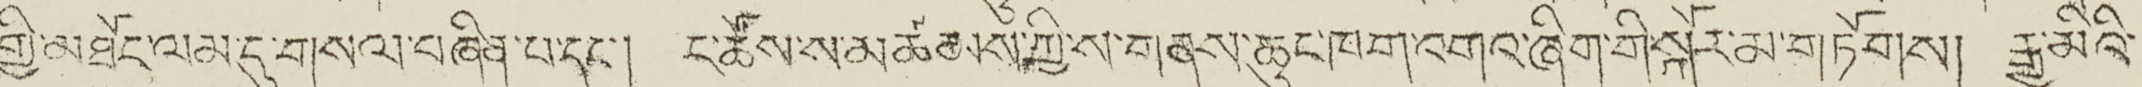གྱི་མཐོང་ལན་དུ་གསལ་བཞིན་པ་དང་། ང་ཚོས་ས་མཚམས་ཀྱི་ས་གནས་ཆུང་ཁག་འགའ་ཞིག་གི་སྐོར་མ་གཏོགས། རྒྱ་མིའི་
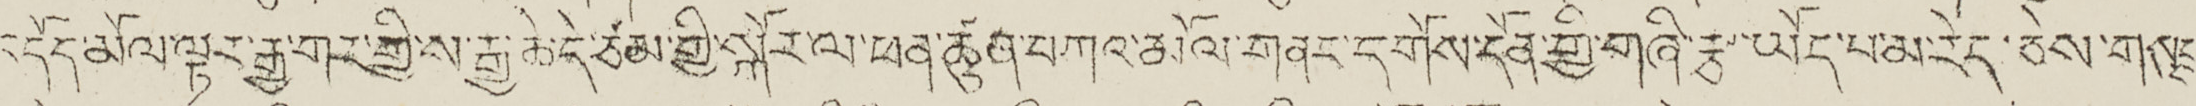འདོད་མོལ་ལྟར་རྒྱ་གར་གྱིས་རྒྱ་ཆེ་དེ་ཙམ་གྱི་སྐོར་ལ་ཕན་ཚུན་བཀའ་མོལ་གནང་དགོས་དོན་གྱི་གཞི་རྩ་ཡོད་པ་མ་རེད་ཅེས་གསུངས
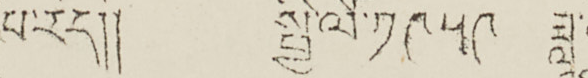པ་རེད།། སྤྱི་ལོ་ ༡༩༥༩ ཟླ་
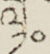༡༠
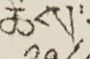ཚེས་
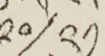༢༠/༢༡
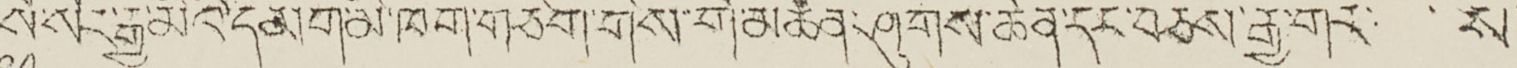སོ་སོར་རྒྱ་མིའི་དམག་མི་ཁག་གཅིག་གིས་གོ་མཚོན་ཤུགས་ཆེན་དང་བཅས་རྒྱ་གར་ ས་
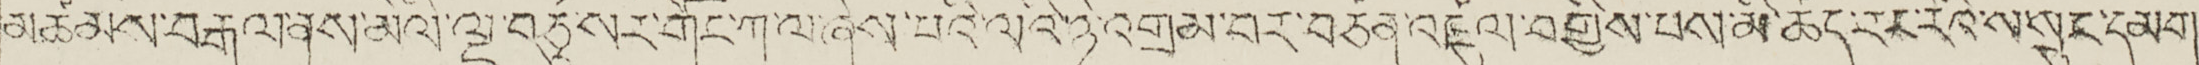མཚམས་བརྒལ་ནས་མེལི་ལྔ་བཅུ་སར་གོང་ཀ་ལ་ཞེས་པའི་ལའི་ཉེ་འགྲམ་བར་བཙན་འཛུལ་བགྱིས་པས་མི་ཚད་རང་རེའི་ས་སྲུང་དམག་
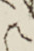༩
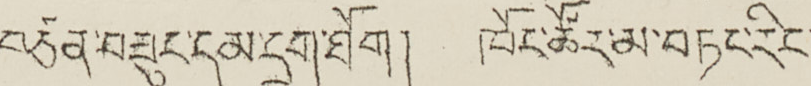བཙན་བཟུང་དམ་དྲག་ཐོག། ཁོང་ཚོར་མ་བཏང་རིང་
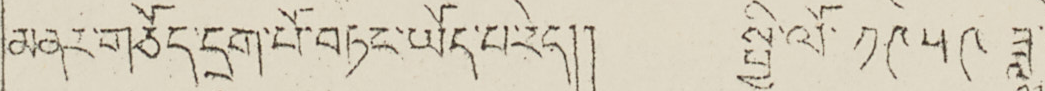མནར་གཅོད་དྲག་པོ་བཏང་ཡོད་པ་རེད།། སྤྱི་ལོ་ ༡༩༥༩ ཟླ་
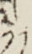༡༡
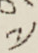༧
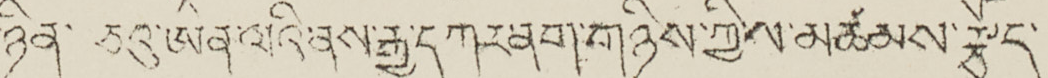ཉིན་ ཅའུ་ཨེན་ལའི་ནས་རྒྱ་དཀར་ནག་གཉིས་ཀྱིས་མཚམས་རྩོད་
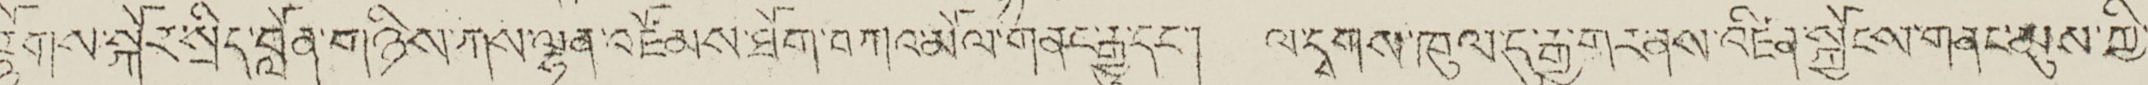རྙོགས་སྐོང་སྲིད་བློན་གཉིས་ཀས་ལྷག་འཛོམས་ཐོག་བཀའ་མོལ་གནང་རྒྱུ་དང་། ལ་དྭགས་ཁུལ་དུ་རྒྱ་གར་ནས་འཛིན་སྐྱོངས་གནང་མུས་ཀྱི་
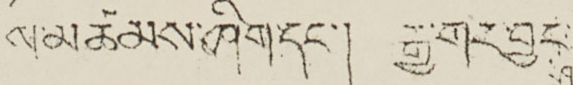ས་མཚམས་ཤིག་དང་། རྒྱ་གར་བྱང་
